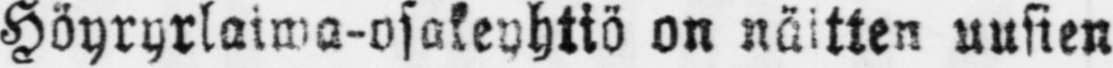Höyryrlaiwa-osakeyhtiö on näitten uusien
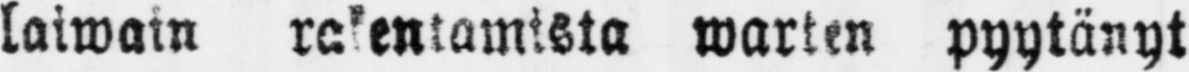laiwain rakentamista warten pyytänyt
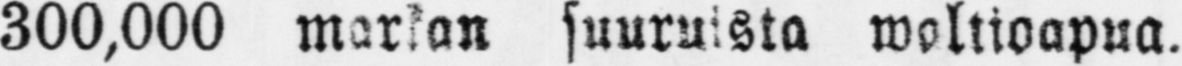300,000 markan suuruista woltioapua.
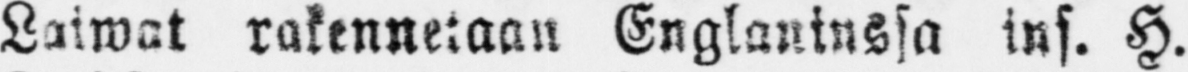Laiwat rakennetaan Englaninssa ins. H.
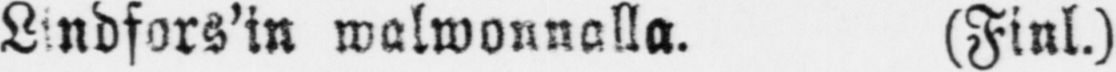Lindfors'in walwonnalla. (Finl.)
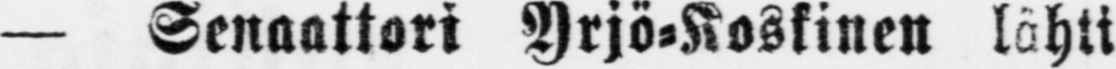— Senaattori Yrjö-Koskinen lähti
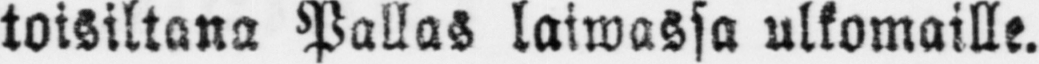toisiltana Pallas laiwassa ulkomaille.
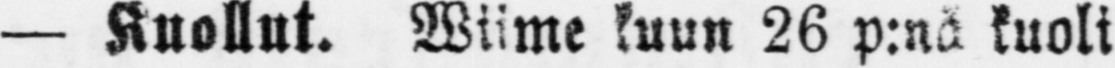— Kuollut. Wiime kuun 26 p:nä kuoli
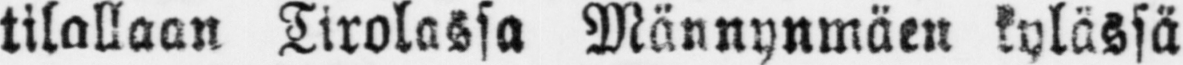tilallaan Tirolassa Männynmäen kylässä
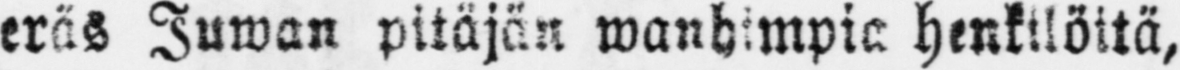eräs Auwan pitäjän wanhimpia henkilöitä,
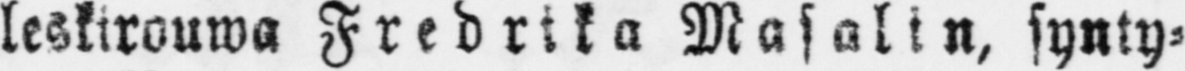leskirouwa Fredrika Masalin, synty-
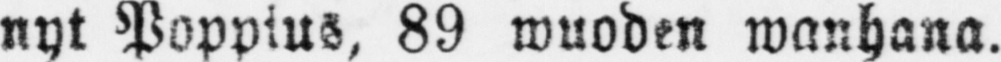nyt Poppius, 89 wuoden wanhana.
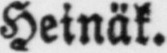Heinäk.
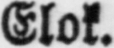Elok.
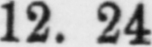12. 24
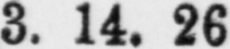3. 14. 26
